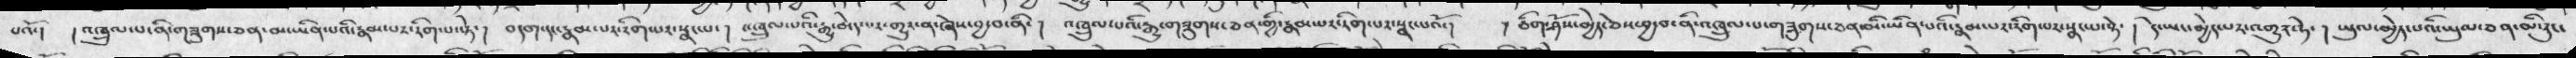པའོ་།   ། འཁྲུལ་པ་ནི་གཟུགས་ཅན་མ་ཡིན་པའི་རྣམ་པར་རིག་པ་སྟེ་།  བདག་དང་རྣམ་པར་རིག་པར་སྣང་པ་  །  འཁྲུལ་པའི་རྒྱུ་མེད་པར་གྱུར་ན་ཞེས་བྱ་བ་ནི་ །  འཁྲུལ་པའི་རྒྱུ་གཟུགས་ཅན་གྱི་རྣམ་པར་རིག་པར་སྣང་པའོ་ །   ། ཅིག་ཤོས་མྱེད་ཅེས་བྱ་བ་ནི་འཁྲུལ་པ་གཟུགས་ཅན་མི་ཡིན་པའི་རྣམ་པར་རིག་པར་སྣང་པ་སྟེ་ །  དེ་ཡང་མྱེད་པར་འགྱུར་ཏེ་ །  ཡུལ་མྱེད་པའི་ཡུལ་ཅན་མི་རུང་
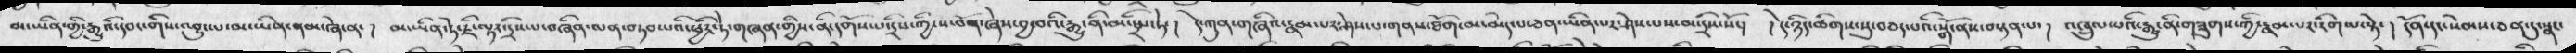མ་ཡིན་གྱི་རྒྱུའི་དབང་གིས་འབྱུང་པ་མ་ཡིན་ནམ་ཞེ་ན་ །  མ་ཡཡིན་ཏེ་ཇི་ལྟར་དྲིས་པ་བཞིན་ལན་བཏབ་པའི་ཕྱིར་ཏེ་གཞན་གྱིས་ནི་དགོས་པ་དྲིས་ཀྱི་ས་བོན་ཞེས་བྱ་བའི་རྒྱུ་ནི་མི་སྤང་ཏེ་།  དེ་ཀུན་གཞིའ་རྣམ་པར་ཤེས་པ་གནས་ཐོག་མ་མེད་པ་ཅན་ཡིན་པར་ཤེས་པས་མ་དྲིས་སོ་།   ། དེ་ཉིད་ཚིགས་སུ་བཅད་པའི་སྒོ་ནས་བསྟན་པ་།   འཁྲུལ་པའི་རྒྱུ་ནི་གཟུགས་ཀྱི་རྣམ་པར་རིག་པ་སྟེ་ །  དོན་དང་སེམས་ཅན་དུ་སྣང་
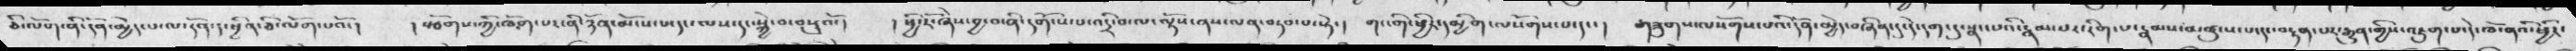ཅི་ལོག་ནི་དོན་མྱེད་པ་ལ་དོན་དུ་ཕྱིན་ཅི་ལོག་པའོ་།   ། སཅོགས་ཀྱི་ཁོག་པར་ནི་ཉོན་མོངས་པ་དང་ལས་དང་སྐྱེ་བ་བསྡུའོ་།   ། ཕྱི་རོ་ཞེས་བྱ་བ་ནི་དགོངས་པ་འདྲི་བ་ལ་ལྟོས་ནས་ལན་བཏབ་པ་སྟེ་།   གང་གི་ཕྱིར་དམིག་ལསོགས་པ་དང་།   གཟུགས་ལསོགས་པའི་དོན་མྱེད་བཞིན་དུ་དེ་དག་དུ་སྣང་པའི་རྣམ་པར་རིག་པ་རྣམས་མཚུངས་པ་དང་བརྟན་པར་རྒྱུན་གྱིས་འཇུག་པ་དེ་ཁོ་ནའི་ཕྱིར་
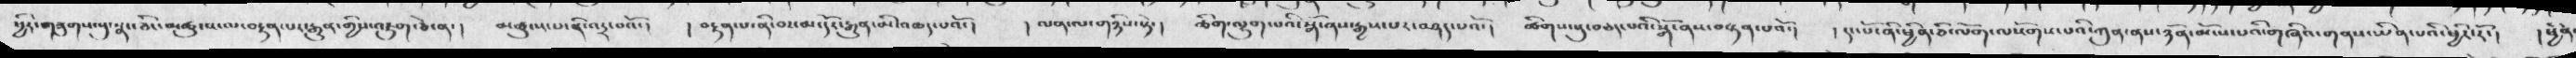ཕྱིར་གཟུགས་སུ་སྣང་ཅིང་མཚུངས་ལ་བརྟན་པར་རྒྱུན་གྱིས་འཇུག་ཅེ་ན་།  མཚུངས་པ་ནི་འདྲ་བའོ་།   ། བརྟན་པ་ནི་བར་མ་དོར་རྒྱུན་མི་འཆད་པའོ་།  ། ལན་ལ་གཉིས་སྟེ་།   ཚིག་ལྷུག་པའི་སྒོ་ནས་རྒྱས་པར་བཤད་པའོ་།  ཚིགས་སུ་བཅད་པའི་སྒོ་ནས་བསྟན་པའོ་།   ། དང་པོ་ནི་ཕྱིན་ཅི་ལོག་ལསོགས་པའི་ཀུན་ནས་ཉོན་མོངས་པའི་གཞིའ་གནས་ཡིན་པའི་ཕྱིར་རོ་།  ། ཕྱིན་
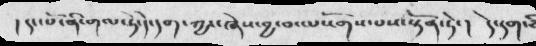།  དང་པོ་ནི་གལ་ཏེ་དེ་དག་ཀྱང་ཞེས་བྱ་བ་ལསོགས་པས་སྟོན་ཏེ་།    དེ་དག་ཅི
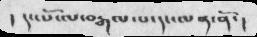།    དང་པོ་ལ་བརྒལ་པ་དང་ལན་ནོ་ །
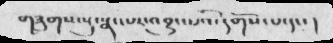གཟུགས་སུ་སྣང་པར་འབྱུང་པའི་དགོས་པ་དང་ །
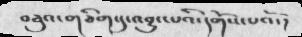བཅུའ་གཅིག་དུ་འབྱུང་པའི་དགོས་པའོ་།
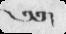༄༅།
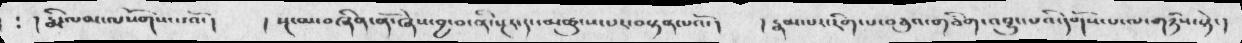༴   ། རྨི་ལམ་ལསོགས་པའོ་།    ། སྔ་མ་བཞིན་ནོ་ཞེས་བྱ་བ་ནི་སྔར་དང་མཚུངས་པར་བསྟན་པའོ་།    ། རྣམ་པར་རིག་པ་བཅུའ་གཅིག་འབྱུང་པའི་དགོས་པ་ལ་གཉིས་སྟེ་།
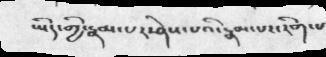ཡིད་གྱི་རྣམ་པར་ཤེས་པའི་རྣམ་པར་རིག་པ
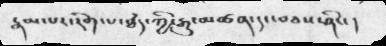རྣམ་པར་རིག་པ་ཐཾད་ཀྱི་རྒྱུ་མཚན་དང་བཅས་ཤིང་ །
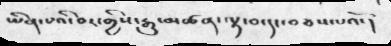ཡིན་པའི་བར་གྱིས་རྒྱུ་མཚན་ལྟ་བ་དང་བཅས་པའོ་།
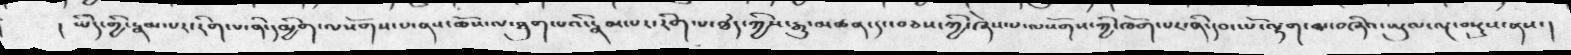།  ཡིད་གྱི་རྣམ་པར་རིག་པ་ནི་དམྱིག་ལསོགས་པ་ནས་ཆོས་ལ་ཐུག་པའི་རྣམ་པར་རིག་པ་ཐཾད་ཀྱིས་རྒྱུ་མཚན་དང་བཅས་ཀྱི་ཞེས་པ་ལསོགས་ཀྱི་ཁོག་པར་ནི་དབང་པོ་ལྷག་མ་བཞིའ་ཡུལ་ལྔ་བསྡུས་ནས་།
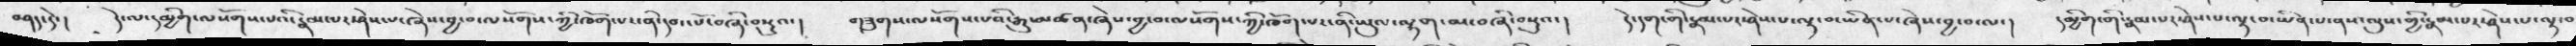བཤད་དེ་།   དེ་ལ་དམྱིག་ལསོགས་པའི་རྣམ་པར་ཤེས་པ་ཞེས་བྱ་ལསོགས་ཀྱི་ཁོག་པར་ནི་དབང་པོ་བཞི་བསྡུའ་།    གཟུགས་ལསོགས་པའི་རྒྱུ་མཚན་ཞེས་བྱ་ལསོགས་ཀྱི་ཁོག་པར་ནི་ཡུལ་ལྷག་མ་བཞི་བསྡུའ་།   དེ་དག་གི་རྣམ་པར་ཤེས་པ་ལྟ་བ་ཡིན་པ་ཞེས་བྱ་བ་ལ་།    དམྱིག་གི་རྣམ་པར་ཤེས་པ་ལྟ་བ་ཡིན་པ་ནས་ལུས་གྱི་རྣམ་པར་ཤེས་པ་ལྟ་བ
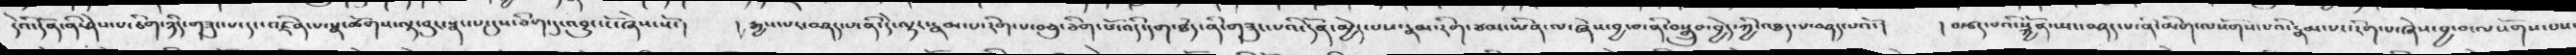དེའི་དོན་ནི་ཤེས་པ་ཅིག་ཉིད་གཟུང་པ་དང་འཛིན་པ་སྣ་ཚོགས་ལྟ་བུར་སྣང་པ་དུས་ཅིག་དུ་འབྱུང་ངོ་ཞེས་སོ་།    ། རྒྱས་པར་བཤད་པ་ནི་དེ་ལྟར་རྣམ་པ་རིག་པ་བཅུ་ཅིག་པོ་འདི་དག་ཐཾད་ནི་གཟུང་པའི་དོན་མྱེད་པས་རྣམ་རིག་ཙམ་ཡིན་ལ་ཞེས་བྱ་བ་ནི་བསྒྲུབ་བྱེད་ཀྱི་འཐད་པ་བཤད་པའོ་།    ། བརྩད་པའི་སྐྱོན་ཡང་བཤད་པ་ནི་མིག་ལསོགས་པའི་རྣམ་པར་རིག་པ་ཞེས་བྱ་བ་ལསོགས་པས་
